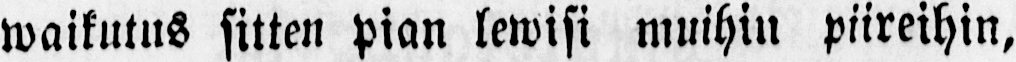waikutus sitten pian lewisi muihin piireihin,
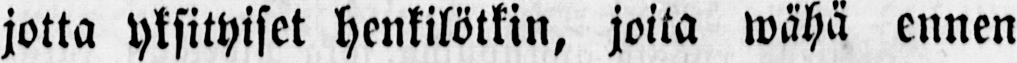jotta yksityiset henkilötkin, joita wähä ennen
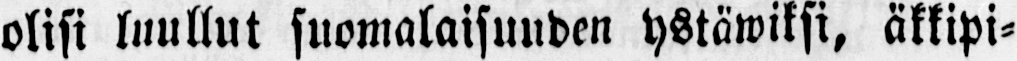olisi luullut suomalaisuuden ystäwiksi, äkkipi-
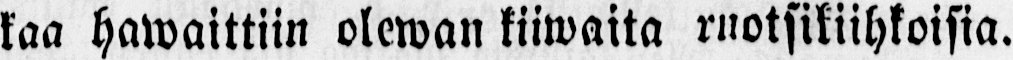kaa hawaittiin olewan kiiwaita ruotsikiihkoisia.
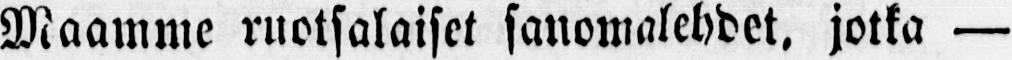Maamme ruotsalaiset sanomalehdet, jotka —
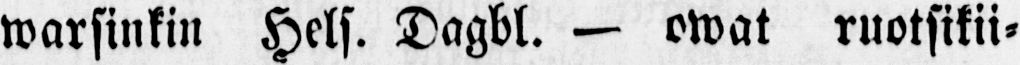warsinkin Hels. Dagbl. — owat ruotsikii-
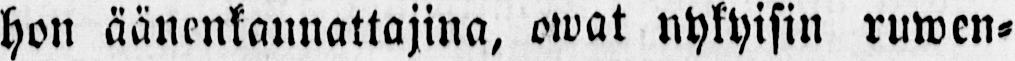hon äänenkannattajina, owat nykyisin ruwen-
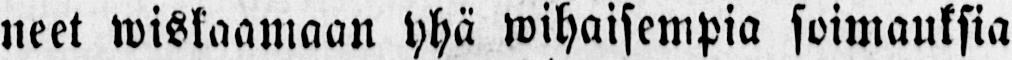neet wiskaamaan yhä wihaisempia soimauksia
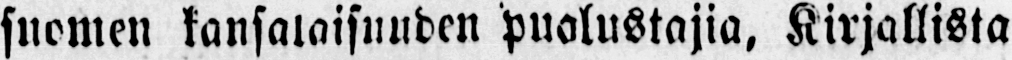suomen kansalaisuuden puolustajia, Kirjallista
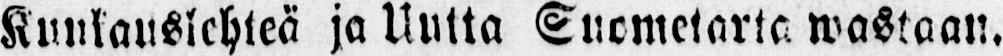Kuukauslehteä ja Uutta Suometarta wastaan.
